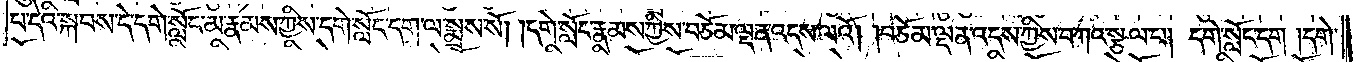པ་དེའི་སྐབས་དེ་དགེ་སློང་མ་རྣམས་ཀྱིས་དགེ་སློང་དག་ལ་སྨྲས་སོ། །དགེ་སློང་རྣམས་ཀྱིས་བཅོམ་ལྡན་འདས་ལའོ། །བཅོམ་ལྡན་འདས་ཀྱིས་བཀའ་སྩལ་པ། དགེ་སློང་དག །དགེ་
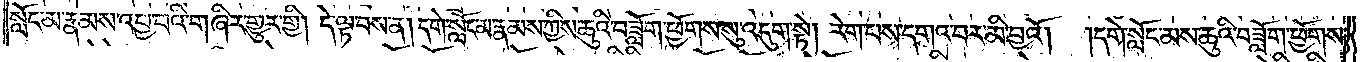སློང་མ་རྣམས་འཕྱ་བའི་གཞིར་གྱུར་གྱི། དེ་ལྟ་བས་ན། དགེ་སློང་མ་རྣམས་ཀྱིས་ཆུའི་བཟློག་ཕྱོགས་སུ་འདུག་སྟེ། རེག་པས་དགའ་བར་མི་བྱའོ། །དགེ་སློང་མས་ཆུའི་བཟློག་ཕྱོགས་
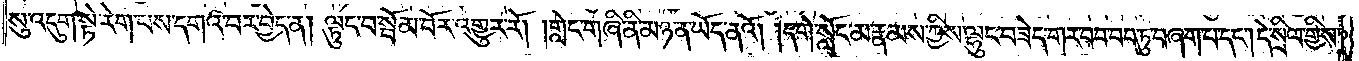སུ་འདུག་སྟེ་རེག་པས་དགའ་བར་བྱེད་ན། ལྟུང་བ་སྦོམ་པོར་འགྱུར་རོ། །གླེང་གཞི་ནི་མཉན་ཡོད་ནའོ། །དགེ་སློང་མ་རྣམས་ཀྱིས་ལྷུང་བཟེད་གར་བབ་བབ་ཏུ་བཞག་པ་དང༌། དེ་སྲིལ་གྱིས་
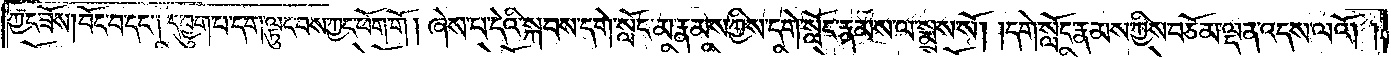ཀྱང་ཟོས། བོང་བ་དང༌། དབྱུག་པ་དག་ལྟུང་བས་ཀྱང་ཕོག་གོ། ཞེས་པ་དེའི་སྐབས་དགེ་སློང་མ་རྣམས་ཀྱིས་དགེ་སློང་རྣམས་ལ་སྨྲས་སོ། །དགེ་སློང་རྣམས་ཀྱིས་བཅོམ་ལྡན་འདས་ལའོ། །
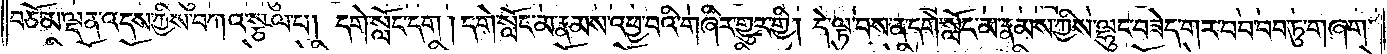བཅོམ་ལྡན་འདས་ཀྱིས་བཀའ་སྩལ་པ། དགེ་སློང་དག །དགེ་སློང་མ་རྣམས་འཕྱ་བའི་གཞིར་གྱུར་གྱི། དེ་ལྟ་བས་ན་དགེ་སློང་མ་རྣམས་ཀྱིས་ལྷུང་བཞེད་གར་བབ་བབ་ཏུ་གཞག་
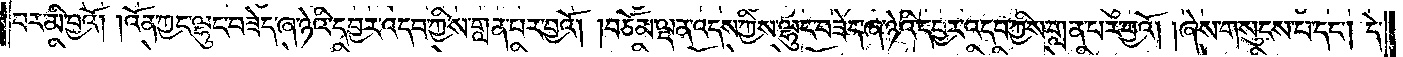པར་མི་བྱའོ། །འོན་ཀྱང་ལྷུང་བཟེད་ཞ་ཉེའི་དབྱར་འདབ་ཀྱིས་གླན་པར་བྱའོ། །བཅོམ་ལྡན་འདས་ཀྱིས་ལྷུང་བཟེད་ཞ་ཉེའི་དབྱར་འདབ་ཀྱིས་གླན་པར་བྱའོ། །ཞེས་གསུངས་པ་དང༌། དེ་
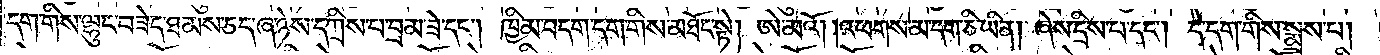དག་གིས་ལྷུང་བཟེད་ཐམས་ཅད་ཞ་ཉེས་དཀྲིས་པ་བྲམ་ཟེ་དང༌། ཁྱིམ་བདག་དག་གིས་མཐོང་སྟེ། ཨེ་མའོ། །འཕགས་མ་དག་ཅི་ཡིན། ཞེས་དྲིས་པ་དང༌། དེ་དག་གིས་སྨྲས་པ།
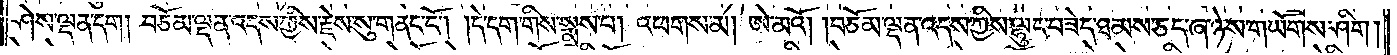ཤེས་ལྡན་དག །བཅོམ་ལྡན་འདས་ཀྱིས་རྗེས་སུ་གནང་ངོ༌། །དེ་དག་གིས་སྨྲས་པ། འཕགས་མ། ཨེ་མའོ། །བཅོམ་ལྡན་འདས་ཀྱིས་ལྷུང་བཟེད་ཐམས་ཅད་ཞ་ཉེས་གཡོགས་ཤིག །
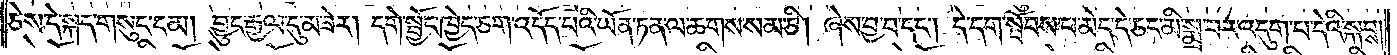ཅེས་དེ་སྐད་གསུང་ངམ། བྱུང་རྒྱལ་དུ་མ་ཟེར། དགེ་སྦྱོང་ཁྱེད་ཅག་འདོད་པའི་ཡོན་ཏན་ལ་ཆགས་སམ་ཅི་།ཞེས་བྱ་བ་དང༌། དེ་དག་སྦོབས་པ་མེད་དེ་ཅང་མི་སྨྲ་བར་འདུག་པ་དེའི་སྐབས་
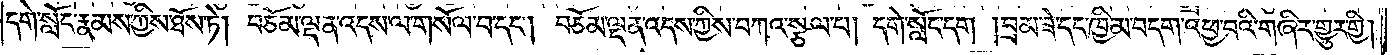དགེ་སློང་རྣམས་ཀྱིས་ཐོས་ཏེ། བཅོམ་ལྡན་འདས་ལ་གསོལ་བ་དང༌། བཅོམ་ལྡན་འདས་ཀྱིས་བཀའ་སྩལ་པ། དགེ་སློང་དག །བྲམ་ཟེ་དང་ཁྱིམ་བདག་འཕྱ་བའི་གཞིར་གྱུར་གྱི་
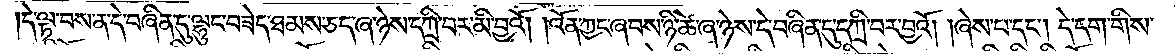དེ་ལྟ་བས་ན་དེ་བཞིན་དུ་ལྷུང་བཟེད་ཐམས་ཅད་ཞ་ཉེས་དཀྲི་བར་མི་བྱའོ། །འོན་ཀྱང་ཞབས་ཉི་ཚེ་ཞ་ཉེས་དེ་བཞིན་དུ་དཀྲི་བར་བྱའོ། །ཞེས་པ་དང༌། དེ་དག་གིས་
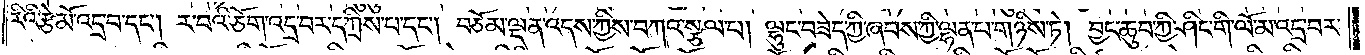རིའི་རྩེ་མོ་འདྲ་བ་དང༌། ར་བའི་ཅོག་འདྲ་བར་དཀྲིས་པ་དང༌། བཅོམ་ལྡན་འདས་ཀྱིས་བཀའ་སྩལ་པ། ལྷུང་བཟེད་ཀྱི་ཞབས་ཀྱི་ལྷན་པ་གཉིས་ཏེ། བྱང་ཆུབ་ཀྱི་ཤིང་གི་ལོ་མ་འདྲ་བར་
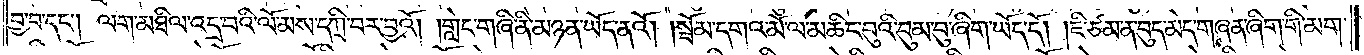བྱ་བ་དང༌། ལག་མཐིལ་འདྲ་བའི་ལོ་མས་དཀྲི་བར་བྱའོ། །གླེང་གཞི་ནི་མཉན་ཡོད་ནའོ། །སྦོམ་དགའ་མོ་ལ་མཆིང་བུའི་བུམ་བུ་ཞིག་ཡོད་དོ། །ཇི་ཙམ་ན་བུད་མེད་གཞན་ཞིག་གི་མག་
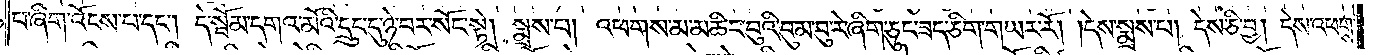པ་ཞིག་འོངས་པ་དང༌། དེ་སྦོམ་དགའ་མོའི་དྲུང་དུ་ཉེ་བར་སོང་སྟེ། སྨྲས་པ། འཕགས་མ་མཆིང་བུའི་བུམ་བུ་རེ་ཞིག་ཅུང་ཟད་ཅིག་གཡར་རོ། །དེས་སྨྲས་པ། དེས་ཅི་བྱ། དེས་འཕགས་
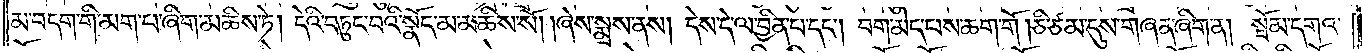མ་བདག་གི་མག་པ་ཞིག་མཆིས་ཏེ། དེའི་བཏུང་བའི་སྣོད་མ་མཆིས་སོ། །ཞེས་སྨྲས་ནས། དེས་དེ་ལ་བྱིན་པ་དང༌། བག་མེད་པས་ཆག་གོ །ཅི་ཙམ་དུས་གཞན་ཞིག་ན། སྦོམ་དགའ་
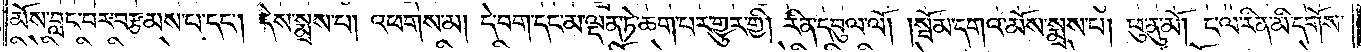མོས་བླང་བར་བརྩམས་པ་དང༌། དེས་སྨྲས་པ། འཕགས་མ། དེ་བག་དང་མ་ལྡན་ཏེ་ཆག་པར་གྱུར་གྱི། རིན་དབུལ་ལོ། །སྦོམ་དགའ་མོས་སྨྲས་པ། ཕུ་ནུ་མོ། ང་ལ་རིན་མི་དགོས་
